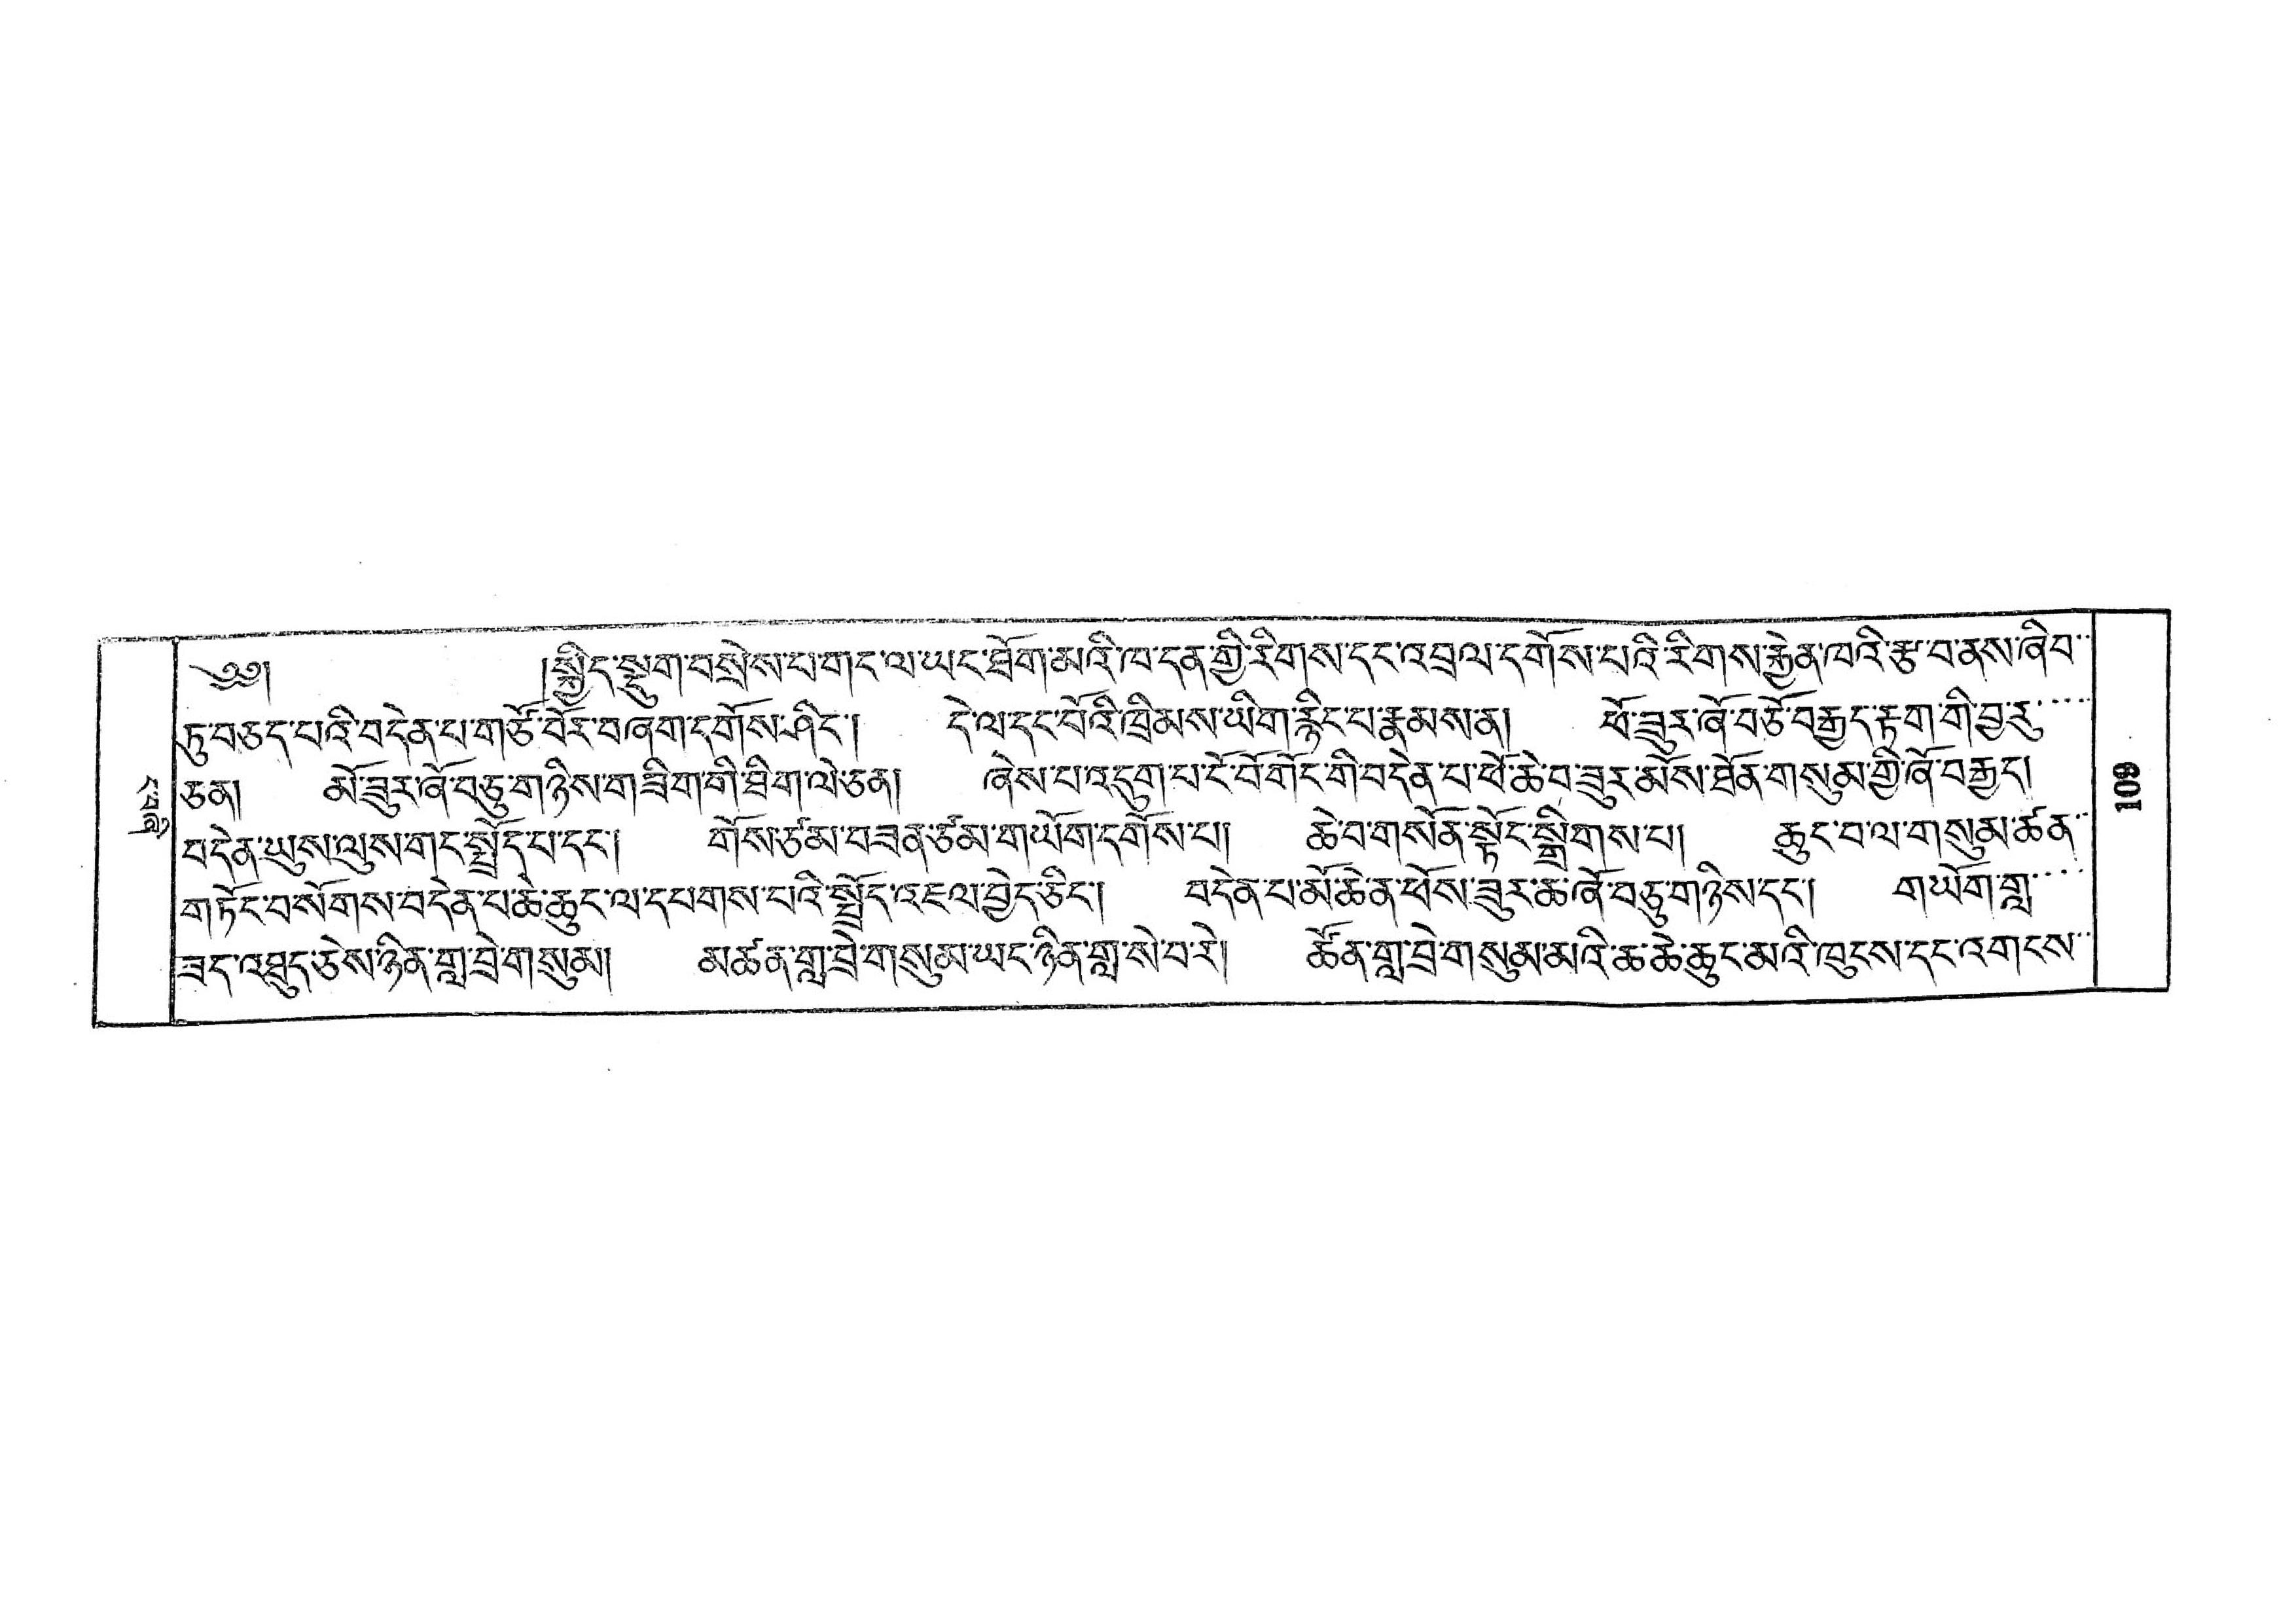ང་བཞི་
༄༅།  །སྐྱིད་སྡུག་བསྲེས་པ་གང་ལ་ཡང་ཐོག་མའི་ཁ་དན་གྱི་རིགས་དང་འབྲལ་དགོས་པའི་རིགས་རྐྱེན་ཁའི་རྩ་བ་ནས་ཞིབ་་
ཏུ་བཅད་པའི་བདེན་པ་གཙོ་བོར་བཞག་དགོས་ཤིང་། དེ་ལ་དང་པོའི་ཁྲིམས་ཡིག་རྙིང་པ་རྣམས་ན། ཕོ་ཟུར་ཞོ་བཅོ་བརྒྱད་རྟག་གི་བྱ་རུ་་་་
ཅན། མོ་ཟུར་ཞོ་བཅུ་གཉིས་གཟིག་གི་ཐིག་ལེ་ཅན། ཞེས་པ་འདུག་པ་ངོ་བོ་གོང་གི་བདེན་པ་ཕོ་ཆེ་བ་ཟུར་མོས་ཐོན་གསུམ་གྱི་ཞོ་བརྒྱད།
བདེན་ཡུས་ལུས་གང་སྤྲོད་པ་དང་། གོས་ཙམ་བཟན་ཙམ་གཡོག་དགོས་པ། ཆེ་བ་གསོན་སྟོང་སྒྲིགས་པ། ཆུང་བ་ལ་གསུམ་ཚན་་
གཏོང་བ་སོགས་བདེན་པ་ཆེ་ཆུང་ལ་དཔགས་པའི་སྤྲོད་འཇལ་བྱེད་ཅིང་། བདེན་པ་མོ་ཆེ་ན་ཕོས་ཟུར་ཆ་ཞོ་བཅུ་གཉིས་དང་། གཡོག་གླ་་་་
ཟད་འཐུད་ཅེས་ཉིན་གླ་བྲེ་གསུམ། མཚན་གླ་བྲེ་གསུམ་ཡང་ཉིན་གླ་སེ་བ་རེ། ཚོན་གླ་བྲེ་གསུམ་མའི་ཆ་ཆེ་ཆུང་མའི་ཁུངས་དང་འགངས་་
